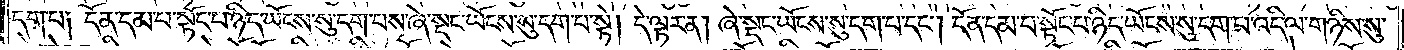དག་པ། དོན་དམ་པ་སྟོང་པ་ཉིད་ཡོངས་སུ་དག་པས་ཞེ་སྡང་ཡོངས་སུ་དག་པ་སྟེ། དེ་ལྟར་ན། ཞེ་སྡང་ཡོངས་སུ་དག་པ་དང༌། དོན་དམ་པ་སྟོང་པ་ཉིད་ཡོངས་སུ་དག་པ་འདི་ལ་གཉིས་སུ་
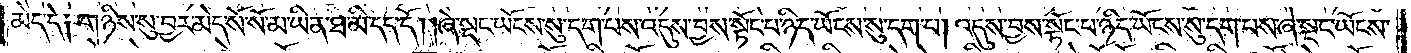མེད་དེ། གཉིས་སུ་བྱར་མེད་སོ་སོ་མ་ཡིན་ཐ་མི་དད་དོ། །ཞེ་སྡང་ཡོངས་སུ་དག་པས་འདུས་བྱས་སྟོང་པ་ཉིད་ཡོངས་སུ་དག་པ། འདུས་བྱས་སྟོང་པ་ཉིད་ཡོངས་སུ་དག་པས་ཞེ་སྡང་ཡོངས་
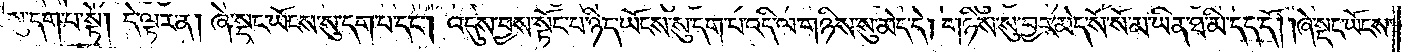སུ་དག་པ་སྟེ། དེ་ལྟར་ན། ཞེ་སྡང་ཡོངས་སུ་དག་པ་དང༌། འདུས་བྱས་སྟོང་པ་ཉིད་ཡོངས་སུ་དག་པ་འདི་ལ་གཉིས་སུ་མེད་དེ། གཉིས་སུ་བྱར་མེད་སོ་སོ་མ་ཡིན་ཐ་མི་དད་དོ། །ཞེ་སྡང་ཡོངས་
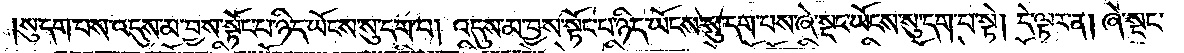སུ་དག་པས་འདུས་མ་བྱས་སྟོང་པ་ཉིད་ཡོངས་སུ་དག་པ། འདུས་མ་བྱས་སྟོང་པ་ཉིད་ཡོངས་སུ་དག་པས་ཞེ་སྡང་ཡོངས་སུ་དག་པ་སྟེ། དེ་ལྟར་ན། ཞེ་སྡང་
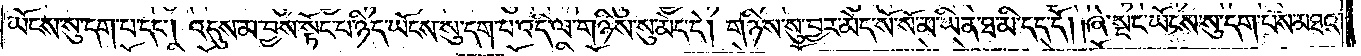ཡོངས་སུ་དག་པ་དང༌། འདུས་མ་བྱས་སྟོང་པ་ཉིད་ཡོངས་སུ་དག་པ་འདི་ལ་གཉིས་སུ་མེད་དེ། གཉིས་སུ་བྱར་མེད་སོ་སོ་མ་ཡིན་ཐ་མི་དད་དོ། །ཞེ་སྡང་ཡོངས་སུ་དག་པས་མཐའ་
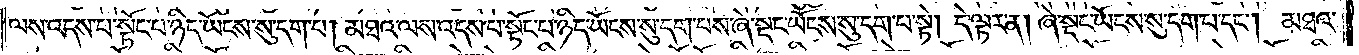ལས་འདས་པ་སྟོང་པ་ཉིད་ཡོངས་སུ་དག་པ། མཐའ་ལས་འདས་པ་སྟོང་པ་ཉིད་ཡོངས་སུ་དག་པས་ཞེ་སྡང་ཡོངས་སུ་དག་པ་སྟེ། དེ་ལྟར་ན། ཞེ་སྡང་ཡོངས་སུ་དག་པ་དང༌། མཐའ་
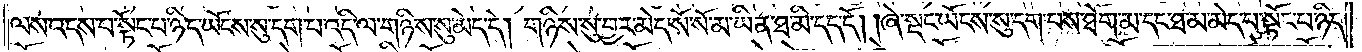ལས་འདས་པ་སྟོང་པ་ཉིད་ཡོངས་སུ་དག་པ་འདི་ལ་གཉིས་སུ་མེད་དེ། གཉིས་སུ་བྱར་མེད་སོ་སོ་མ་ཡིན་ཐ་མི་དད་དོ། །ཞེ་སྡང་ཡོངས་སུ་དག་པས་ཐོག་མ་དང་ཐ་མ་མེད་པ་སྟོང་པ་ཉིད་
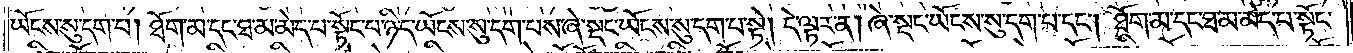ཡོངས་སུ་དག་པ། ཐོག་མ་དང་ཐ་མ་མེད་པ་སྟོང་པ་ཉིད་ཡོངས་སུ་དག་པས་ཞེ་སྡང་ཡོངས་སུ་དག་པ་སྟེ། དེ་ལྟར་ན། ཞེ་སྡང་ཡོངས་སུ་དག་པ་དང༌། ཐོག་མ་དང་ཐ་མ་མེད་པ་སྟོང་
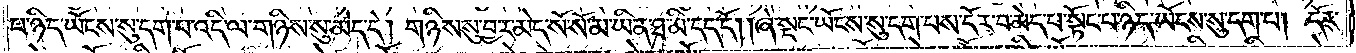པ་ཉིད་ཡོངས་སུ་དག་པ་འདི་ལ་གཉིས་སུ་མེད་དེ། གཉིས་སུ་བྱར་མེད་སོ་སོ་མ་ཡིན་ཐ་མི་དད་དོ། །ཞེ་སྡང་ཡོངས་སུ་དག་པས་དོར་བ་མེད་པ་སྟོང་པ་ཉིད་ཡོངས་སུ་དག་པ། དོར་
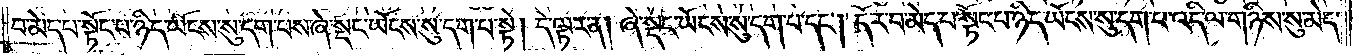བ་མེད་པ་སྟོང་པ་ཉིད་ཡོངས་སུ་དག་པས་ཞེ་སྡང་ཡོངས་སུ་དག་པ་སྟེ། དེ་ལྟར་ན། ཞེ་སྡང་ཡོངས་སུ་དག་པ་དང༌། དོར་བ་མེད་པ་སྟོང་པ་ཉིད་ཡོངས་སུ་དག་པ་འདི་ལ་གཉིས་སུ་མེད་
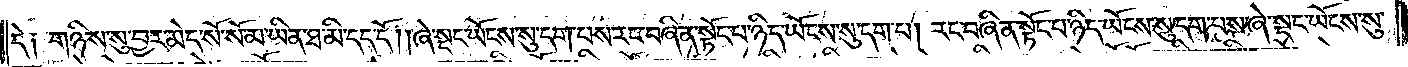དེ༑ གཉིས་སུ་བྱར་མེད་སོ་སོ་མ་ཡིན་ཐ་མི་དད་དོ། །ཞེ་སྡང་ཡོངས་སུ་དག་པས་རང་བཞིན་སྟོང་པ་ཉིད་ཡོངས་སུ་དག་པ། རང་བཞིན་སྟོང་པ་ཉིད་ཡོངས་སུ་དག་པས་ཞེ་སྡང་ཡོངས་སུ་
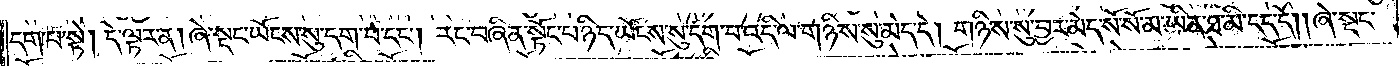དག་པ་སྟེ། དེ་ལྟར་ན། ཞེ་སྡང་ཡོངས་སུ་དག་པ་དང༌། རང་བཞིན་སྟོང་པ་ཉིད་ཡོངས་སུ་དག་པ་འདི་ལ་གཉིས་སུ་མེད་དེ། གཉིས་སུ་བྱར་མེད་སོ་སོ་མ་ཡིན་ཐ་མི་དད་དོ། །ཞེ་སྡང་
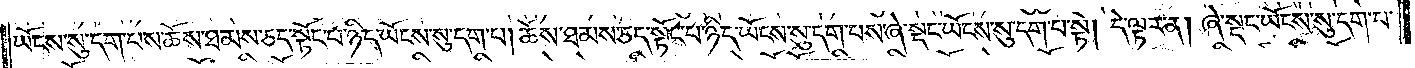ཡོངས་སུ་དག་པས་ཆོས་ཐམས་ཅད་སྟོང་པ་ཉིད་ཡོངས་སུ་དག་པ། ཆོས་ཐམས་ཅད་སྟོང་པ་ཉིད་ཡོངས་སུ་དག་པས་ཞེ་སྡང་ཡོངས་སུ་དག་པ་སྟེ། དེ་ལྟར་ན། ཞེ་སྡང་ཡོངས་སུ་དག་པ་
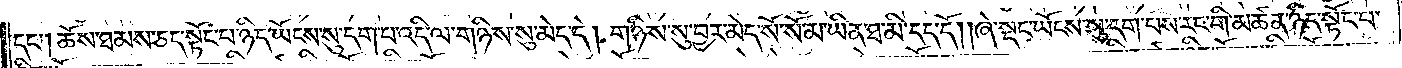དང༌། ཆོས་ཐམས་ཅད་སྟོང་པ་ཉིད་ཡོངས་སུ་དག་པ་འདི་ལ་གཉིས་སུ་མེད་དེ། གཉིས་སུ་བྱར་མེད་སོ་སོ་མ་ཡིན་ཐ་མི་དད་དོ། །ཞེ་སྡང་ཡོངས་སུ་དག་པས་རང་གི་མཚན་ཉིད་སྟོང་པ་
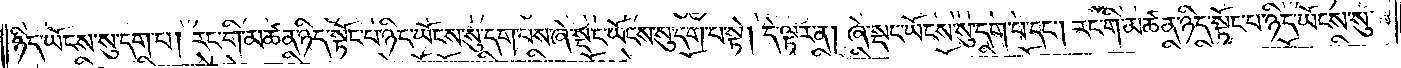ཉིད་ཡོངས་སུ་དག་པ། རང་གི་མཚན་ཉིད་སྟོང་པ་ཉིད་ཡོངས་སུ་དག་པས་ཞེ་སྡང་ཡོངས་སུ་དག་པ་སྟེ། དེ་ལྟར་ན། ཞེ་སྡང་ཡོངས་སུ་དག་པ་དང༌། རང་གི་མཚན་ཉིད་སྟོང་པ་ཉིད་ཡོངས་སུ་
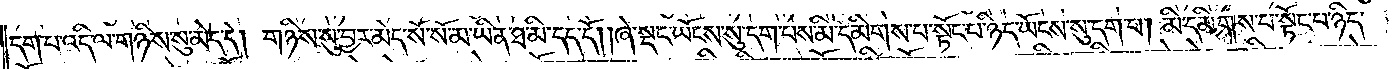དག་པ་འདི་ལ་གཉིས་སུ་མེད་དེ། གཉིས་སུ་བྱར་མེད་སོ་སོ་མ་ཡིན་ཐ་མི་དད་དོ། །ཞེ་སྡང་ཡོངས་སུ་དག་པས་མི་དམིགས་པ་སྟོང་པ་ཉིད་ཡོངས་སུ་དག་པ། མི་དམིགས་པ་སྟོང་པ་ཉིད་
